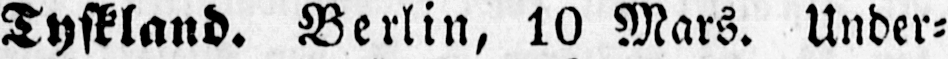Tyskland. Berlin, 10 Mars. Under-
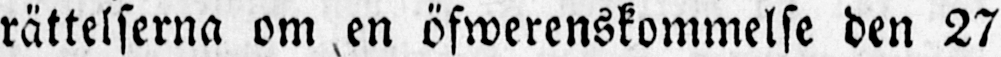rättelserna om en öfwerenskommelse den 27
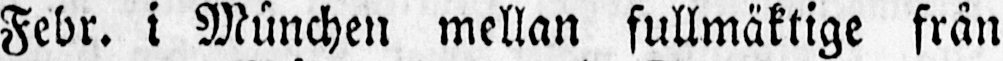Febr. i München mellan fullmäktige från
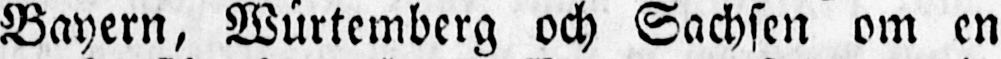Bayern, Würtemberg och Sachsen om en
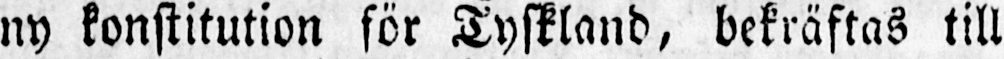ny konstitution för Tyskland, bekräftas till
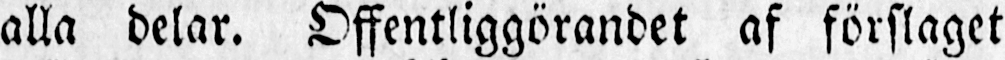alla delar. Offentliggörandet af förslaget
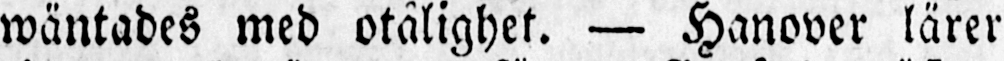wäntades med otålighet. — Hanover lärer
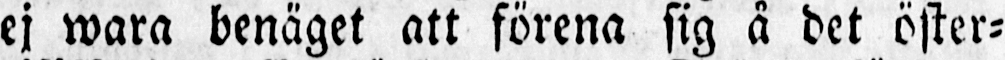ej wara benäget att förena sig å det öster-
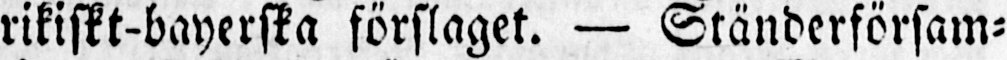rikiskt-bayerska förslaget. — Ständerförsam-
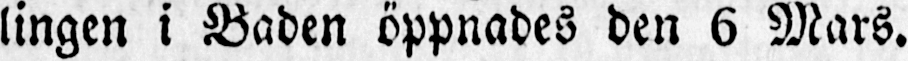lingen i Baden öppnades den 6 Mars.
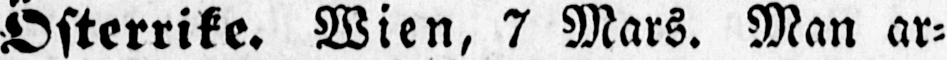Österrike. Wien, 7 Mars. Man ar-
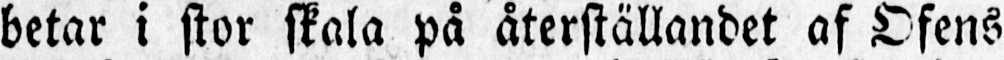betar i stor skala på återställandet af Ofens
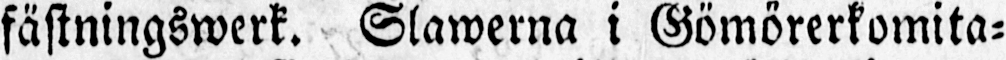fästningswerk. Slawerna i Gömörerkomita-
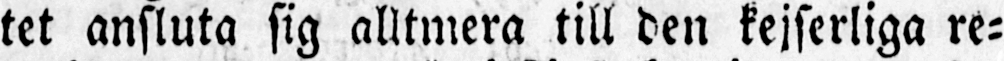tet ansluta sig alltmera till den kejserliga re-
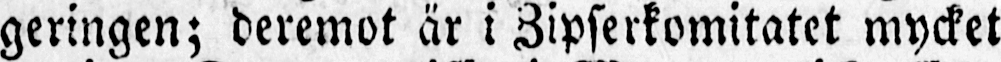geringen; deremot är i Zipserkomitatet mycket
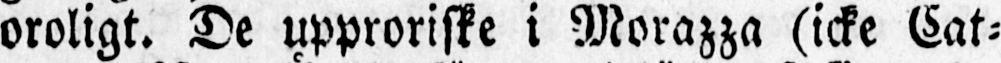oroligt. De upproriske i Morazza (icke Cat-
